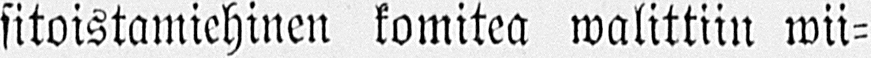sitoistamiehinen komitea walittiin wii-
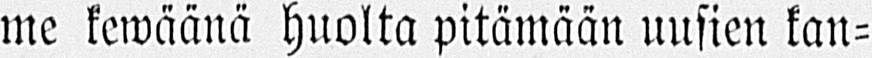me kewäänä huolta pitämään uusien kan-
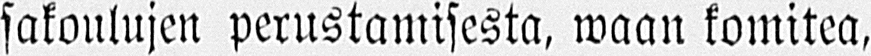sakoulujen perustamisesta, waan komitea,
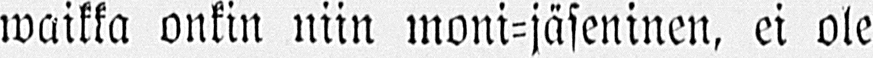waikka onkin niin moni-jäseninen, ei ole
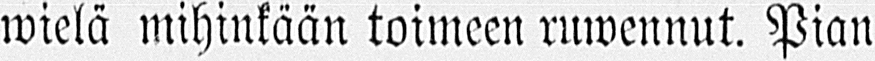wielä mihinkään toimeen ruwennut. Pian
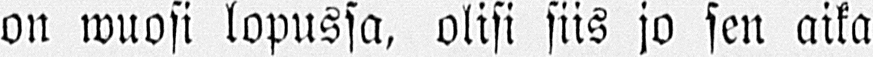on wuosi lopussa, olisi siis jo sen aika
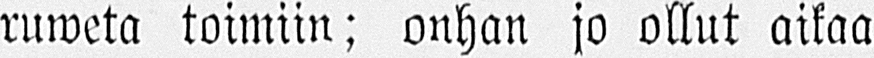ruweta toimiin; onhan jo ollut aikaa
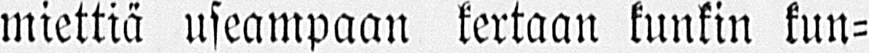miettiä useampaan kertaan kunkin kun-
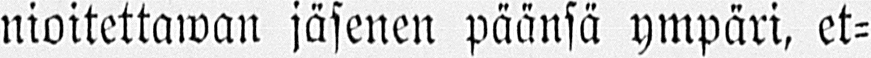nioitettawan jäsenen päänsä ympäri, et-
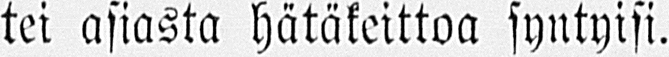tei asiasta hätäkeittoa syntyisi.
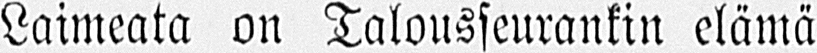Laimeata on Talousseurankin elämä
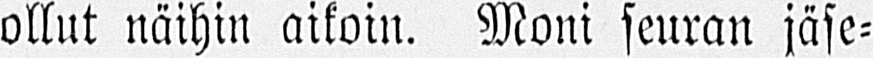ollut näihin aikoin. Moni seuran jäse-
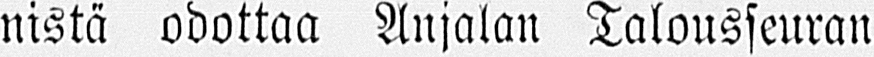nistä odottaa Anjalan Talousseuran
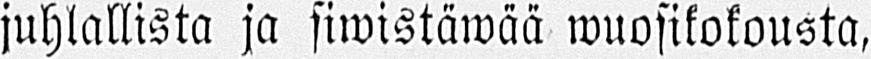juhlallista ja siwistäwää wuosikokousta,
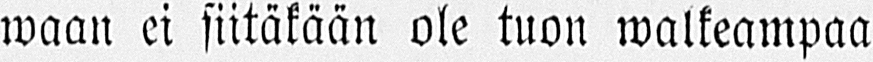waan ei siitäkään ole tuon walkeampaa
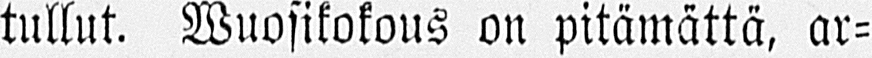tullut. Wuosikokous on pitämättä, ar-
